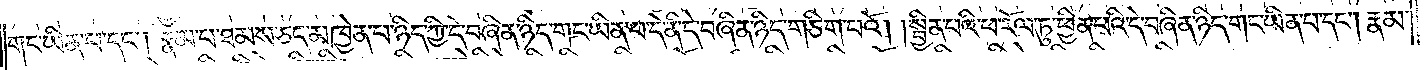གང་ཡིན་པ་དང༌། རྣམ་པ་ཐམས་ཅད་མཁྱེན་པ་ཉིད་ཀྱི་དེ་བཞིན་ཉིད་གང་ཡིན་པ་དེ་ནི་དེ་བཞིན་ཉིད་གཅིག་པའོ། །སྦྱིན་པའི་ཕ་རོལ་ཏུ་ཕྱིན་པའི་དེ་བཞིན་ཉིད་གང་ཡིན་པ་དང༌། རྣམ་
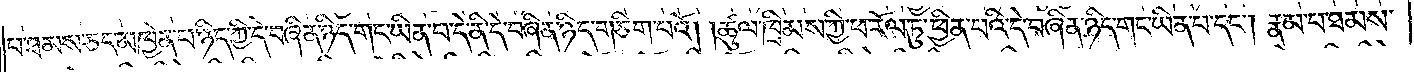པ་ཐམས་ཅད་མཁྱེན་པ་ཉིད་ཀྱི་དེ་བཞིན་ཉིད་གང་ཡིན་པ་དེ་ནི་དེ་བཞིན་ཉིད་གཅིག་པའོ། །ཚུལ་ཁྲིམས་ཀྱི་ཕ་རོལ་ཏུ་ཕྱིན་པའི་དེ་བཞིན་ཉིད་གང་ཡིན་པ་དང༌། རྣམ་པ་ཐམས་
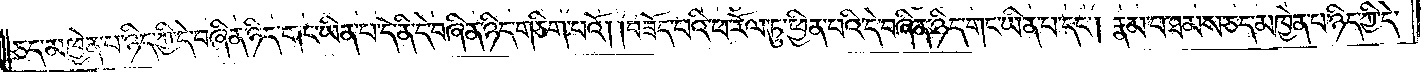ཅད་མཁྱེན་པ་ཉིད་ཀྱི་དེ་བཞིན་ཉིད་གང་ཡིན་པ་དེ་ནི་དེ་བཞིན་ཉིད་གཅིག་པའོ། །བཟོད་པའི་ཕ་རོལ་ཏུ་ཕྱིན་པའི་དེ་བཞིན་ཉིད་གང་ཡིན་པ་དང༌། རྣམ་པ་ཐམས་ཅད་མཁྱེན་པ་ཉིད་ཀྱི་དེ་
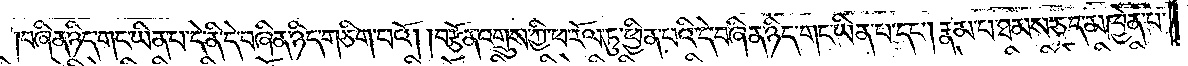བཞིན་ཉིད་གང་ཡིན་པ་དེ་ནི་དེ་བཞིན་ཉིད་གཅིག་པའོ། །བརྩོན་འགྲུས་ཀྱི་ཕ་རོལ་ཏུ་ཕྱིན་པའི་དེ་བཞིན་ཉིད་གང་ཡིན་པ་དང༌། རྣམ་པ་ཐམས་ཅད་མཁྱེན་པ་
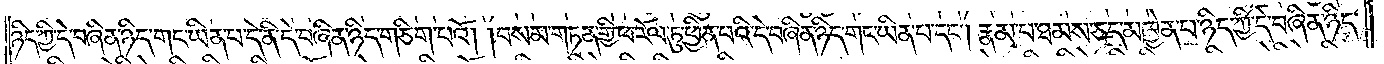ཉིད་ཀྱི་དེ་བཞིན་ཉིད་གང་ཡིན་པ་དེ་ནི་དེ་བཞིན་ཉིད་གཅིག་པའོ། །བསམ་གཏན་གྱི་ཕ་རོལ་ཏུ་ཕྱིན་པའི་དེ་བཞིན་ཉིད་གང་ཡིན་པ་དང༌། རྣམ་པ་ཐམས་ཅད་མཁྱེན་པ་ཉིད་ཀྱི་དེ་བཞིན་ཉིད་
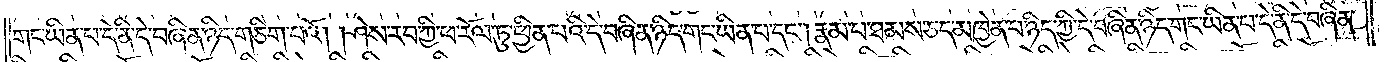གང་ཡིན་པ་དེ་ནི་དེ་བཞིན་ཉིད་གཅིག་པའོ། །ཤེས་རབ་ཀྱི་ཕ་རོལ་ཏུ་ཕྱིན་པའི་དེ་བཞིན་ཉིད་གང་ཡིན་པ་དང༌། རྣམ་པ་ཐམས་ཅད་མཁྱེན་པ་ཉིད་ཀྱི་དེ་བཞིན་ཉིད་གང་ཡིན་པ་དེ་ནི་དེ་བཞིན་
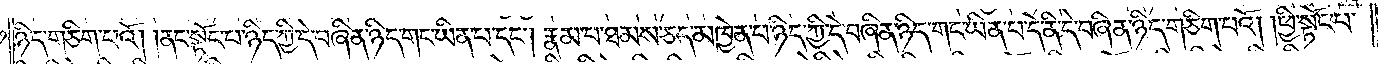ཉིད་གཅིག་པའོ། །ནང་སྟོང་པ་ཉིད་ཀྱི་དེ་བཞིན་ཉིད་གང་ཡིན་པ་དང༌། རྣམ་པ་ཐམས་ཅད་མཁྱེན་པ་ཉིད་ཀྱི་དེ་བཞིན་ཉིད་གང་ཡིན་པ་དེ་ནི་དེ་བཞིན་ཉིད་གཅིག་པའོ། །ཕྱི་སྟོང་པ་
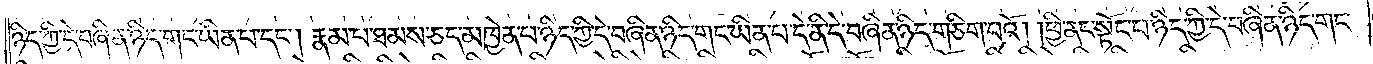ཉིད་ཀྱི་དེ་བཞིན་ཉིད་གང་ཡིན་པ་དང༌། རྣམ་པ་ཐམས་ཅད་མཁྱེན་པ་ཉིད་ཀྱི་དེ་བཞིན་ཉིད་གང་ཡིན་པ་དེ་ནི་དེ་བཞིན་ཉིད་གཅིག་པའོ། །ཕྱི་ནང་སྟོང་པ་ཉིད་ཀྱི་དེ་བཞིན་ཉིད་གང་
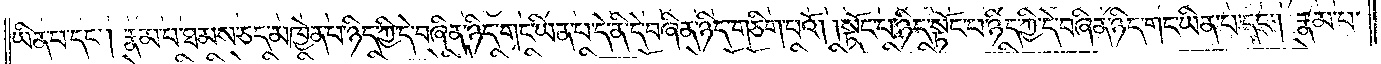ཡིན་པ་དང༌། རྣམ་པ་ཐམས་ཅད་མཁྱེན་པ་ཉིད་ཀྱི་དེ་བཞིན་ཉིད་གང་ཡིན་པ་དེ་ནི་དེ་བཞིན་ཉིད་གཅིག་པའོ། །སྟོང་པ་ཉིད་སྟོང་པ་ཉིད་ཀྱི་དེ་བཞིན་ཉིད་གང་ཡིན་པ་དང༌། རྣམ་པ་
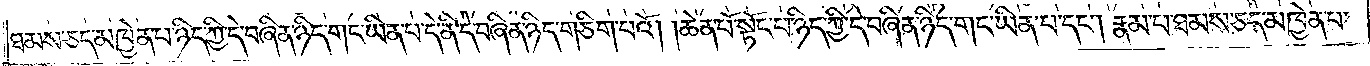ཐམས་ཅད་མཁྱེན་པ་ཉིད་ཀྱི་དེ་བཞིན་ཉིད་གང་ཡིན་པ་དེ་ནི་དེ་བཞིན་ཉིད་གཅིག་པའོ། །ཆེན་པོ་སྟོང་པ་ཉིད་ཀྱི་དེ་བཞིན་ཉིད་གང་ཡིན་པ་དང༌། རྣམ་པ་ཐམས་ཅད་མཁྱེན་པ་
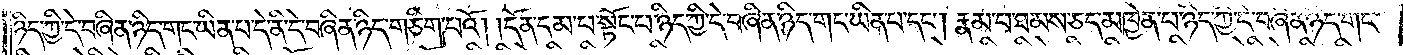ཉིད་ཀྱི་དེ་བཞིན་ཉིད་གང་ཡིན་པ་དེ་ནི་དེ་བཞིན་ཉིད་གཅིག་པའོ། །དོན་དམ་པ་སྟོང་པ་ཉིད་ཀྱི་དེ་བཞིན་ཉིད་གང་ཡིན་པ་དང༌། རྣམ་པ་ཐམས་ཅད་མཁྱེན་པ་ཉིད་ཀྱི་དེ་བཞིན་ཉིད་གང་
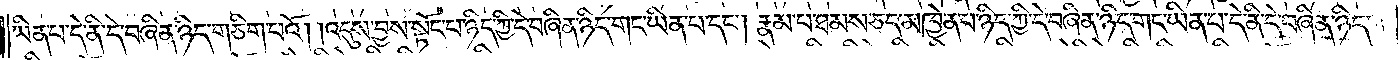ཡིན་པ་དེ་ནི་དེ་བཞིན་ཉིད་གཅིག་པའོ། །འདུས་བྱས་སྟོང་པ་ཉིད་ཀྱི་དེ་བཞིན་ཉིད་གང་ཡིན་པ་དང༌། རྣམ་པ་ཐམས་ཅད་མཁྱེན་པ་ཉིད་ཀྱི་དེ་བཞིན་ཉིད་གང་ཡིན་པ་དེ་ནི་དེ་བཞིན་ཉིད་
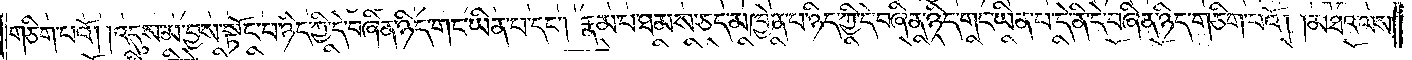གཅིག་པའོ། །འདུས་མ་བྱས་སྟོང་པ་ཉིད་ཀྱི་དེ་བཞིན་ཉིད་གང་ཡིན་པ་དང༌། རྣམ་པ་ཐམས་ཅད་མཁྱེན་པ་ཉིད་ཀྱི་དེ་བཞིན་ཉིད་གང་ཡིན་པ་དེ་ནི་དེ་བཞིན་ཉིད་གཅིག་པའོ། །མཐའ་ལས་
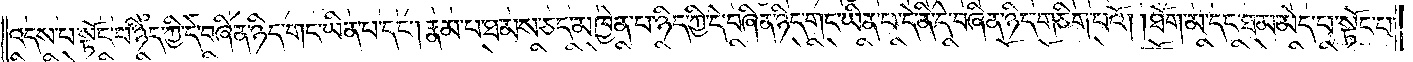འདས་པ་སྟོང་པ་ཉིད་ཀྱི་དེ་བཞིན་ཉིད་གང་ཡིན་པ་དང༌། རྣམ་པ་ཐམས་ཅད་མཁྱེན་པ་ཉིད་ཀྱི་དེ་བཞིན་ཉིད་གང་ཡིན་པ་དེ་ནི་དེ་བཞིན་ཉིད་གཅིག་པའོ། །ཐོག་མ་དང་ཐ་མ་མེད་པ་སྟོང་པ་
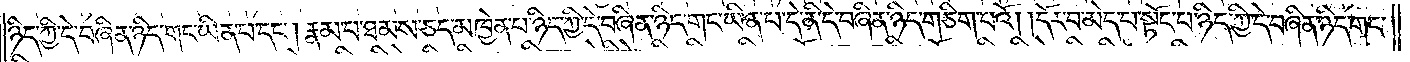ཉིད་ཀྱི་དེ་བཞིན་ཉིད་གང་ཡིན་པ་དང༌། རྣམ་པ་ཐམས་ཅད་མཁྱེན་པ་ཉིད་ཀྱི་དེ་བཞིན་ཉིད་གང་ཡིན་པ་དེ་ནི་དེ་བཞིན་ཉིད་གཅིག་པའོ། །དོར་བ་མེད་པ་སྟོང་པ་ཉིད་ཀྱི་དེ་བཞིན་ཉིད་གང་
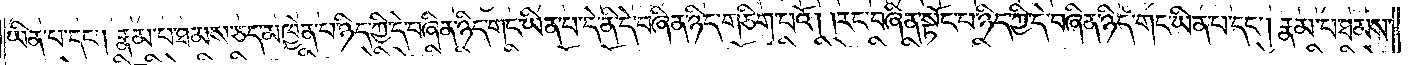ཡིན་པ་དང༌། རྣམ་པ་ཐམས་ཅད་མཁྱེན་པ་ཉིད་ཀྱི་དེ་བཞིན་ཉིད་གང་ཡིན་པ་དེ་ནི་དེ་བཞིན་ཉིད་གཅིག་པའོ། །རང་བཞིན་སྟོང་པ་ཉིད་ཀྱི་དེ་བཞིན་ཉིད་གང་ཡིན་པ་དང༌། རྣམ་པ་ཐམས་
